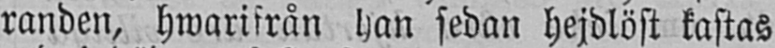randen, hwarifrån han sedan hejdlöst kastas
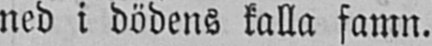ned i dödens kalla famn.
